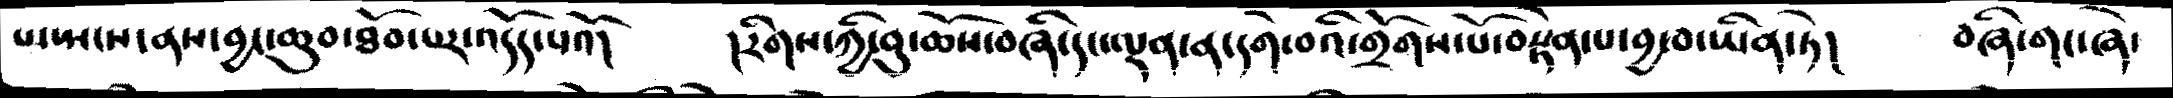པ་སྤངས་ནས་བྱང་ཆུབ་ཐོབ་པར་འདོད་པའོ།   །རིགས་ཀྱི་ཆུ་ཆོས་བཞི་དང་ལྡན་ན་དགེ་བའི་གྲོགས་པོ་བསྟེན་པ་བྱ་བ་ཡིན་ཏེ།   བཞི་གང་ཞེ་
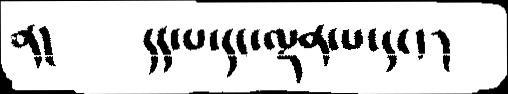ན།     དད་པ་དང་ལྡན་པ་དང་།
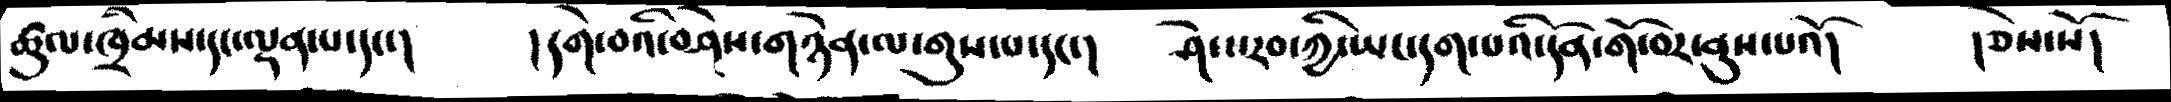ཚུལ་ཁྲིམས་དང་ལྡན་པ་དང་།    །དགེ་བའི་བཤེས་གཉེན་ལ་གུས་པ་དང་།   ཤེས་རབ་ཀྱི་ཡང་དག་པའི་དོན་གོ་བས་ནུས་པའོ།  །ཅེས་སོ།
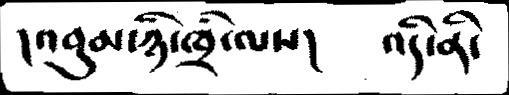།འབུམ་ཉི་ཁྲི་ལས།   འདི་ནི་
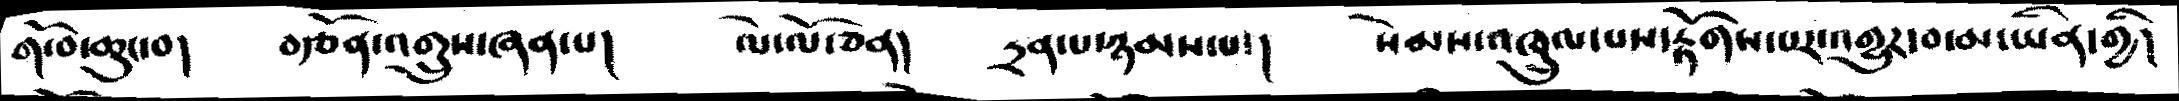གོ་བ་ཆུང་བ།   བརྩོན་འགྲུས་ཞན་པ།   ལེ་ལོ་ཅན།   དྲན་པ་ཉམས་པ་།  སེམས་འཁྲུལ་པས་རྟོགས་པར་འགྱུར་བ་མ་ཡིན་གྱི།
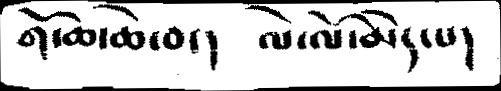གོ་ཆ་ཆེ་བ་།   ལེ་ལོ་མེད་པ།
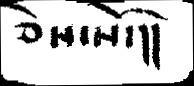ཅེས་སོ་།།
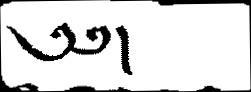༄༅།
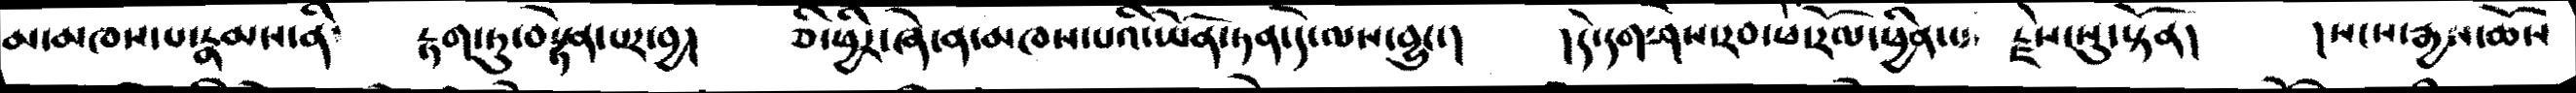མ་མཁས་པ་རྣམས་ནི་   རྟག་དུ་བསྟེན་པར་བྱ།   ཅི་ཕྱིར་ཞེ་ན་མཁས་པའི་ཡོན་ཏན་དེ་ལས་བྱུང་།   །དེ་དག་ཤེས་རབ་ཕ་རོལ་ཕྱིན་པ་  རྗེ་སུ་སྟོན།  །སངས་རྒྱས་ཆོས
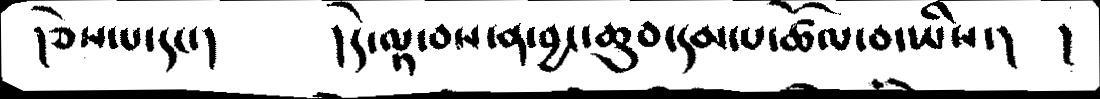།ཅེས་པ་དང་།    །དེ་ལྟ་བས་ན་བྱང་ཆུབ་དམ་པ་ཚོལ་བ་ཡིས་།  །
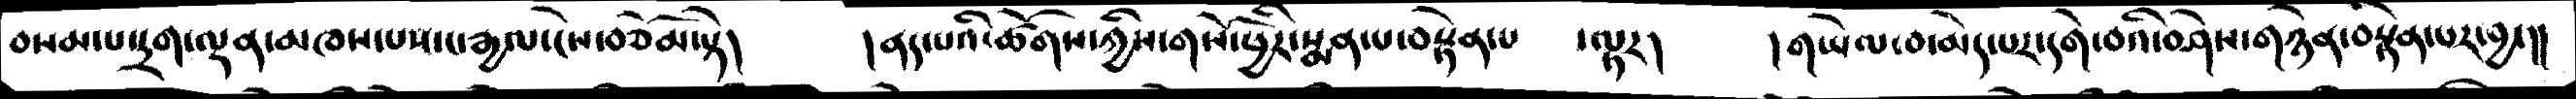བསམ་པ་དྲག་ལྡན་མཁས་པས་ང་རྒྱལ་ངེས་བཅོམ་སྟེ།    །ནད་པའི་ཚོགས་ཀྱིས་གསོ་ཕྱིར་སྨན་པ་བསྟེན་པ   ་ལྟར།  །གཡེལ་བ་མེད་པར་དགེ་བའི་བཤེས་གཉེན་བསྟེན་པར་བྱ་།།
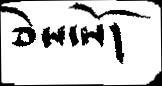ཅེས་སོ།
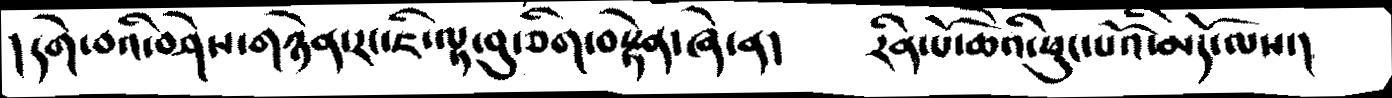།དགེ་བའི་བཤེས་གཉེན་རང་ཇི་ལྟ་བུ་ཅིག་བསྟེན་ཞེ་ན།   རིན་པོ་ཆེའི་ཕུང་པོའི་མདོ་ལས་།
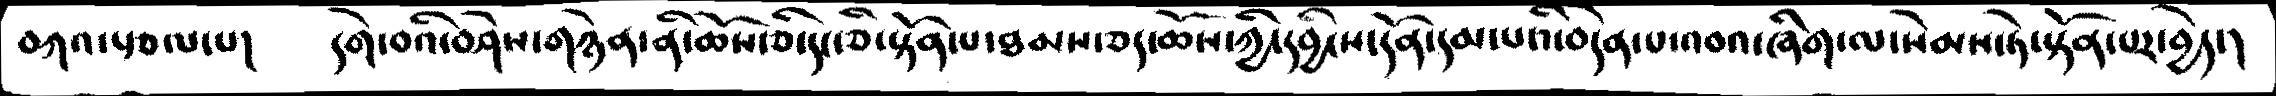བཀའ་སྩལ་པ།   དགེ་བའི་བཤེས་གཉེན་ནི་ཆོས་ཅི་སྟོན་པ་ཐམས་ཅད་ཆོས་ཀྱི་དབྱིངས་དོན་དམ་པའི་བདེན་པ་འབའ་ཞིག་ལ་སེམས་ཏེ་སྟོན་པར་བྱེད་།
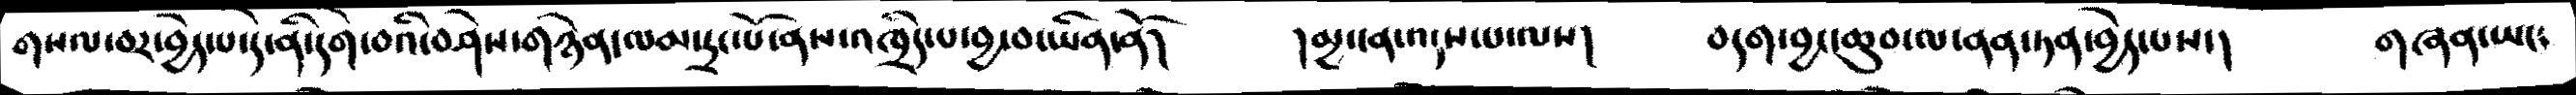གསལ་བར་བྱེད་པ་དེ་ནི་དགེ་བའི་བཤེས་གཉེན་ལམ་དྲང་པོ་ནས་འཁྲིད་པ་བྱ་བ་ཡིན་ནོ།   །མྱ་ངན་འདས་པ་ལས།   བདག་བྱང་ཆུབ་ལ་ནན་ཏན་བྱེད་པས་།  གཞན་ཡང་
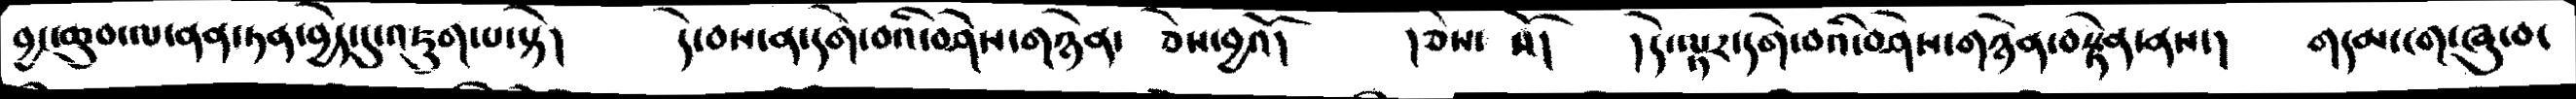བྱང་ཆུབ་ལ་ནན་ཏན་བྱེད་དུ་འཇུག་པ་སྟེ།   དེ་བས་ན་དགེ་བའི་བཤེས་གཉེན་   ཅེས་བྱའོ།   །ཅེས་སོ།  །དེ་ལྟར་དགེ་བའི་བཤེས་གཉེན་བསྟེན་ནས་།   གདམ་ངག་ཞུ་བ་
